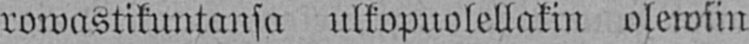rowastikuntansa ulkopuolellakin olewsin
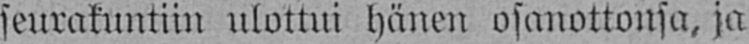seurakuntiin ulottui hänen osanottonsa, ja
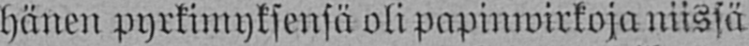hänen pyrkimyksensä oli papinwirkoja niissä
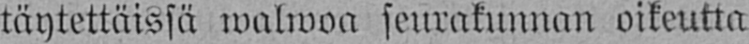täytettäissä walwoa seurakunnan oikeutta
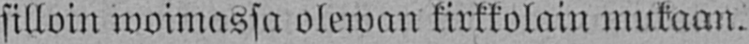silloin woimassa oleman kirkkolain mukaan.
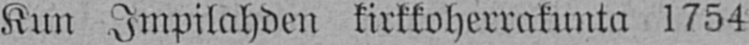Kun Impilahden kirkkoherrakunta 1754
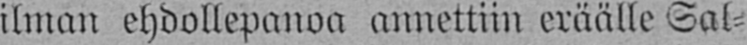ilman ehdollepanoa annettiin eräälle Sal-
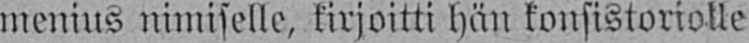menius nimiselle, kirjoitti hän konsistoriolle
